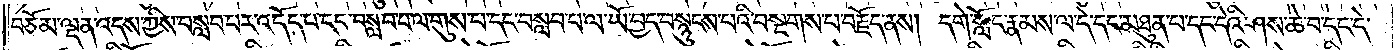བཅོམ་ལྡན་འདས་ཀྱིས་བསླབ་པར་འདོད་པ་དང་བསླབ་པ་ལ་གུས་པ་དང་བསླབ་པ་ལ་ཡེ་བྱད་བསྙུངས་པའི་བསྔགས་པ་བརྗོད་ནས། དགེ་སློང་རྣམས་ལ་དེ་དང་མཐུན་པ་དང་དེའི་ཤས་ཆེ་བ་དང་དེ་
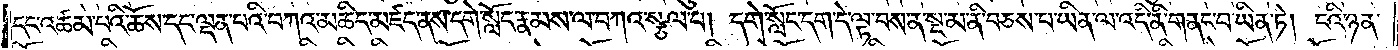དང་འཚམ་པའི་ཆོས་དང་ལྡན་པའི་བཀའ་མཆིད་མཛད་ནས་དགེ་སློང་རྣམས་ལ་བཀའ་སྩལ་པ། དགེ་སློང་དག་དེ་ལྟ་བས་ན་སྔ་མ་ནི་བཅས་པ་ཡིན་ལ་འདི་ནི་གནང་བ་ཡིན་ཏེ། ངའི་ཉན་
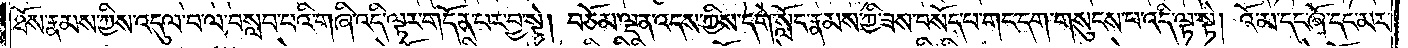ཐོས་རྣམས་ཀྱིས་འདུལ་བ་ལ་བསླབ་པའི་གཞི་འདི་ལྟར་གདོན་པར་བྱ་སྟེ། བཅོམ་ལྡན་འདས་ཀྱིས་དགེ་སློང་རྣམས་ཀྱི་ཟས་བསོད་པ་གང་དག་གསུངས་པ་འདི་ལྟ་སྟེ། འོ་མ་དང་ཞོ་དང་མར་
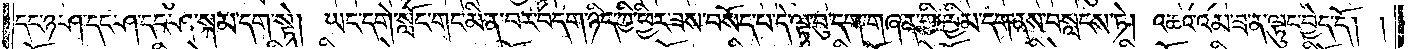དང་ཉ་ཤ་དང་ཤ་སྐམ་དག་སྟེ། ཡང་དགེ་སློང་གང་མི་ན་བར་བདག་ཉིད་ཀྱི་ཕྱིར་ཟས་བསོད་པ་དེ་ལྟ་བུ་དག་གཞན་གྱི་ཁྱིམ་དག་ནས་བསླངས་ཏེ། འཆའ་འམ་ཟ་ན་ལྟུང་བྱེད་དོ། །
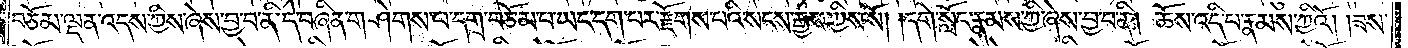བཅོམ་ལྡན་འདས་ཀྱིས་ཞེས་བྱ་བ་ནི་དེ་བཞིན་གཤེགས་པ་དགྲ་བཅོམ་པ་ཡང་དག་པར་རྫོགས་པའི་སངས་རྒྱས་ཀྱིས་སོ། །དགེ་སློང་རྣམས་ཀྱི་ཞེས་བྱ་བ་ནི། ཆོས་འདི་པ་རྣམས་ཀྱིའོ། །ཟས་
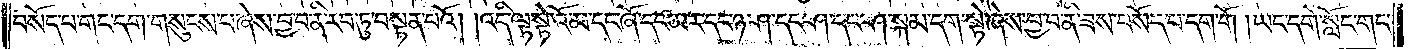བསོད་པ་གང་དག་གསུངས་པ་ཞེས་བྱ་བ་ནི་རབ་ཏུ་བསྟན་པའོ། །འདི་ལྟ་སྟེ་འོ་མ་དང་ཞོ་དང་མར་དང་ཉ་ཤ་དང་ཤ་དང་སྐམ་དག་སྟེ་ཞེས་བྱ་བ་ནི་ཟས་བསོད་པ་དག་གོ །ཡང་དགེ་སློང་གང་
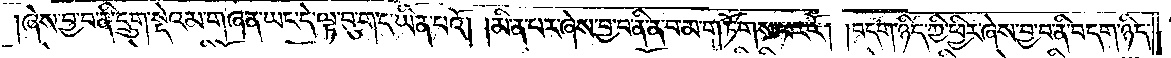ཞེས་བྱ་བ་ནི་དྲུག་སྡེའམ་གཞན་ཡང་དེ་ལྟ་བུ་གང་ཡིན་པའོ། །མི་ན་བར་ཞེས་བྱ་བ་ནི་ན་བ་མ་གཏོགས་པར་རོ། །བདག་ཉིད་ཀྱི་ཕྱིར་ཞེས་བྱ་བ་ནི་བདག་ཉིད་
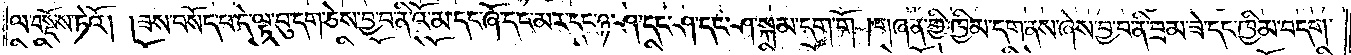ལ་བསྔོས་ཏེའོ། །ཟས་བསོད་པ་དེ་ལྟ་བུ་དག་ཅེས་བྱ་བ་ནི་འོ་མ་དང་ཞོ་དང་མར་དང་ཉ་ཤ་དང་ཤ་དང་ཤ་སྐམ་དག་གོ །གཞན་གྱི་ཁྱིམ་དག་ནས་ཞེས་བྱ་བ་ནི་བྲམ་ཟེ་དང་ཁྱིམ་བདག་
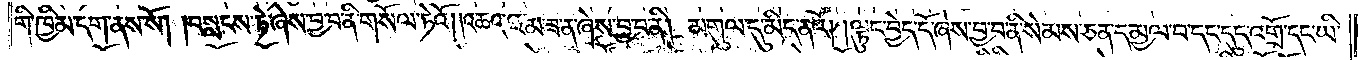གི་ཁྱིམ་དག་ནས་སོ། །བསླངས་ཏེ་ཞེས་བྱ་བ་ནི་གསོལ་ཏེའོ། །འཆའ་འམ་ཟ་ན་ཞེས་བྱ་བ་ནི། མགུལ་དུ་མིད་ནའོ། །ལྟུང་བྱེད་དོ་ཞེས་བྱ་བ་ནི་སེམས་ཅན་དམྱལ་བ་དང་དུད་འགྲོ་དང་ཡི་
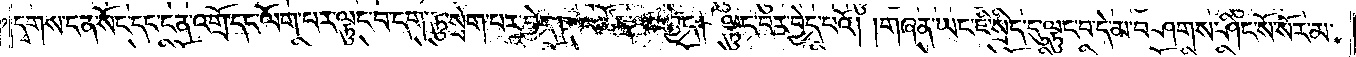དྭགས་ངན་སོང་དང་ངན་འགྲོ་དང་ལོག་པར་ལྟུང་བ་དག་ཏུ་སྲེག་པར་བྱེད། འཚོད་པར་བྱེད། ལྟུང་བར་བྱེད་པའོ། །གཞན་ཡང་ཇི་སྲིད་དུ་ལྟུང་བ་དེ་མ་བཤགས་ཤིང་སོ་སོར་མ་
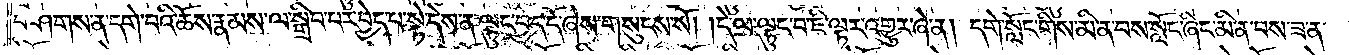བཤགས་ན་དགེ་བའི་ཆོས་རྣམས་ལ་སྒྲིབ་པར་བྱེད་པ་སྟེ་དེས་ན་ལྟུང་བྱེད་དོ་ཞེས་གསུངས་སོ། །དེ་ལ་ལྟུང་བ་ཇི་ལྟར་འགྱུར་ཞེ་ན། དགེ་སློང་གིས་མི་ན་བས་སློང་ཞིང་མི་ན་བས་ཟ་ན་
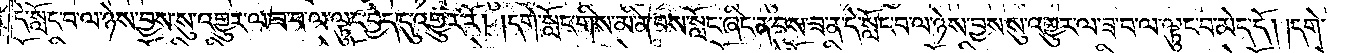དེ་སློང་བ་ལ་ཉེས་བྱས་སུ་འགྱུར་ལ་ཟ་བ་ལ་ལྟུང་བྱེད་དུ་འགྱུར་རོ། །དགེ་སློང་གིས་མི་ན་བས་སློང་ཞིང་ན་བས་ཟ་ན་དེ་སློང་བ་ལ་ཉེས་བྱས་སུ་འགྱུར་ལ་ཟ་བ་ལ་ལྟུང་བ་མེད་དོ། །དགེ་
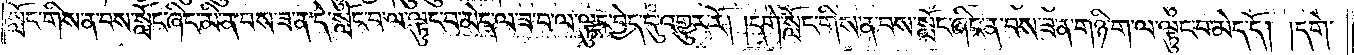སློང་གིས་ན་བས་སློང་ཞིང་མི་ན་བས་ཟ་ན་དེ་སློང་བ་ལ་ལྟུང་བ་མེད་ལ་ཟ་བ་ལ་ལྟུང་བྱེད་དུ་འགྱུར་རོ། །དགེ་སློང་གིས་ན་བས་སློང་ཞིང་ན་བས་ཟ་ན་གཉི་ག་ལ་ལྟུང་བ་མེད་དོ། །དགེ་
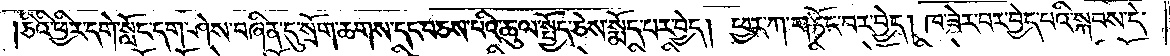ཅིའི་ཕྱིར་དགེ་སློང་དག་ཤེས་བཞིན་དུ་སྲོག་ཆགས་དང་བཅས་པའི་ཆུ་ལ་སྤྱོད་ཅེས་སྨོད་པར་བྱེད། ཕྱར་ཀ་གཏོང་བར་བྱེད། ཁ་ཟེར་བར་བྱེད་པའི་སྐབས་དེ་
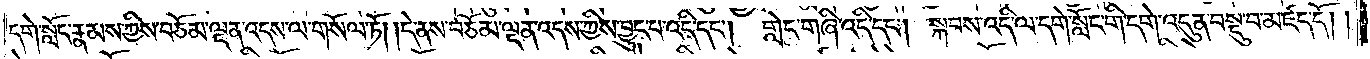དགེ་སློང་རྣམས་ཀྱིས་བཅོམ་ལྡན་འདས་ལ་གསོལ་ཏོ། །དེ་ནས་བཅོམ་ལྡན་འདས་ཀྱིས་བྱུང་བ་འདི་དང༌། གླེང་གཞི་འདི་དང༌། སྐབས་འདི་ལ་དགེ་སློང་གི་དགེ་འདུན་བསྡུ་བ་མཛད་དོ། །
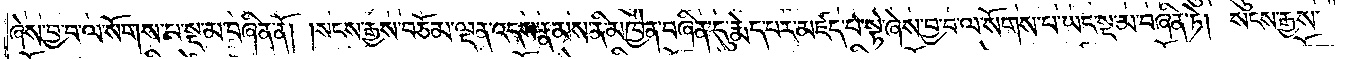ཞེས་བྱ་བ་ལ་སོགས་པ་སྔ་མ་བཞིན་ནོ། །སངས་རྒྱས་བཅོམ་ལྡན་འདས་རྣམས་ནི་མཁྱེན་བཞིན་དུ་རྨེད་པར་མཛད་པ་སྟེ་ཞེས་བྱ་བ་ལ་སོགས་པ་ཡང་སྔ་མ་བཞིན་ཏེ། སངས་རྒྱས་
